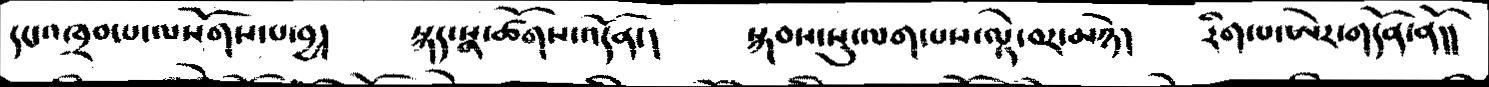དང་འཁྲབ་པ་ལསོགས་པ་བྱ།        སྐད་སྣ་ཚོགས་འདོན་།       སྐབས་སུ་ལག་པས་ལྟེ་བར་མཉེ།     རིག་པ་ཨེར་འདོན་ནོ།།
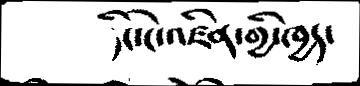ཏིང་ངེ་འཛིན་གྱི་ཁྱད་
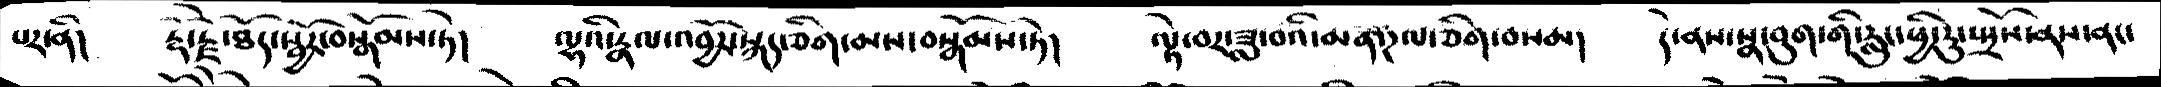པར་ནི།      རྡོ་རྗེ་ཐོད་སྦྱོར་བ་བསྒོམས་ཏེ།   ལྷའི་རྣལ་འབྱོར་སྐད་ཅིག་མས་བསྒོམས་ཏེ།    ལྟེ་བར་ཟླ་བའི་མན་ཌལ་ཅིག་བསམ།    དེ་ནས་སྣ་བུག་གི་རླུང་ཕྱི་རུ་སྤྲོས་ནས་ནང་
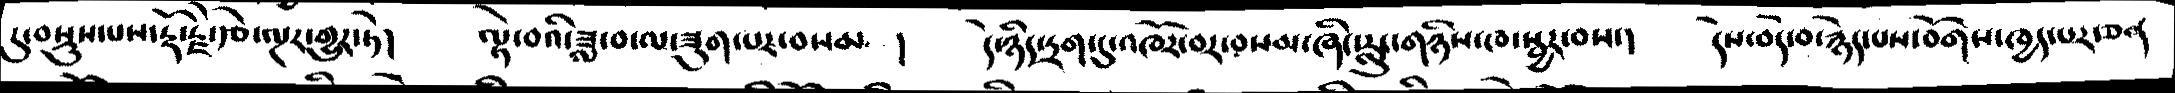དུ་བསྡུས་པས་རྡོ་རྗེ་རྩེ་ལྔར་གྱུར་ཏེ།   ལྟེ་བའི་ཟླ་བ་ལ་ཟུག་པར་བསམ  །  དེ་ཉིད་དྲག་དུ་འཁོར་བར་བསམ་ཞིང་རླུང་གཉིས་ཁ་སྦྱར་བས་།   དེས་བདེ་བ་རྙེད་པས་བོགས་ཁྱད་པར་ཅན
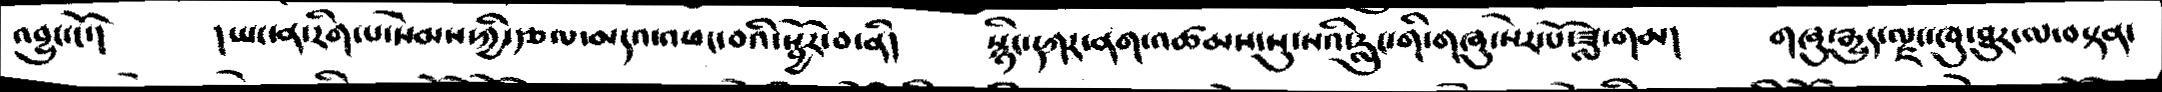འབྱུང་ངོ་།     །ཡང་ན་རིག་པ་སེམས་ཀྱི་རྩལ་མདའ་འཕང་བའི་སྦྱོར་བ་ནི།   སྙིང་དཀར་ནག་འཚམས་སུ་སའི་རླུང་གི་གཞུ་སེར་པོ་ཟླ་གམ།    གཞུ་རྒྱུད་ལྗང་ཁུ་ཐུར་ལ་བསྟན་
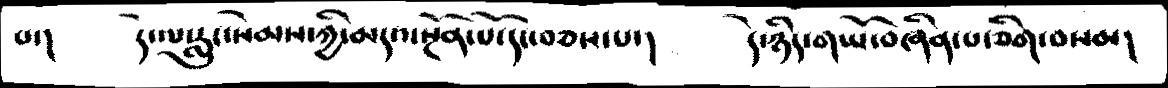པ་།     དེ་ལ་རླུང་སེམས་ཀྱི་མདའ་སྔོན་པོ་དང་བཅས་པ་།        དེ་ཉིད་གཡོ་བཞིན་པ་ཅིག་བསམ།
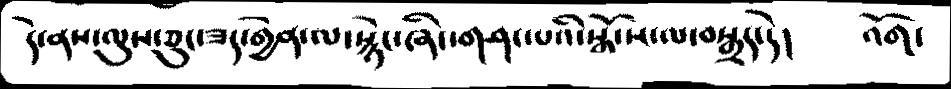དེ་ནས་ལུས་ཅུང་ཟད་གྱེན་ལ་སྙེང་ཞིང་གཤང་པའི་སྒོ་ས་ལ་བསྒྲད་དེ།       འོག་
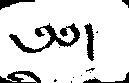༄༅།
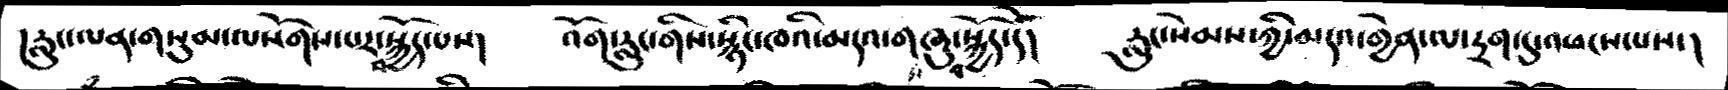།རླུང་ལན་གསུམ་ལསོགས་པར་བསྐྱོད་པས།   འོག་རླུང་གིས་སྙིང་ཁའི་མདའ་གཞུ་བསྐྱོད་དེ།   རླུང་སེམས་ཀྱི་མདའ་གྱེན་ལ་དྲག་དུ་འཕངས་པས་།
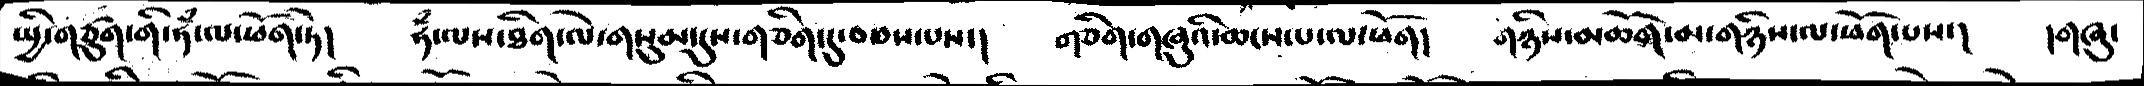སྤྱི་གཙུག་གི་ཧཾ་ལ་ཕོག་ཏེ།   ཧཾ་ལས་ཐིག་ལེ་གསུམ་དུས་གཅིག་དུ་བཅས་པས་།    གཅིག་གཞུའི་ཆངས་པ་ལ་ཕོག།    གཉིས་མཆོག་མ་གཉིས་ལ་ཕོག་པས་།    །གཞུ་
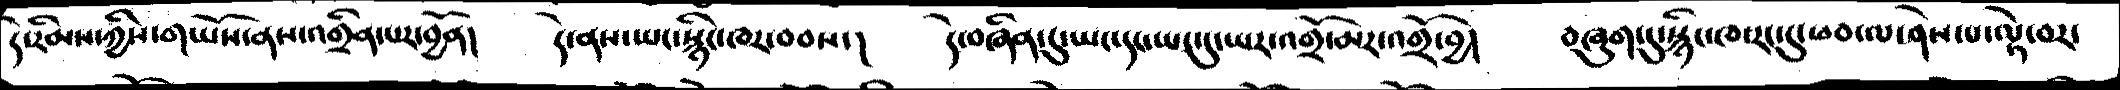དེ་རིམས་ཀྱིས་གཡོས་ནས་འགྲིན་པར་བྱོན།      དེ་ནས་ཡང་སྙིང་ཁར་བབས་།  དེ་བཞིན་དུ་ཡང་དང་ཡང་དུ་ཡར་འགྲོ་མར་འགྲོ་བྱེ།    བཞུག་དུ་སྙིང་ཁར་རང་དུཕབ་ལ་ཤེས་པ་ལྟེ་བར་
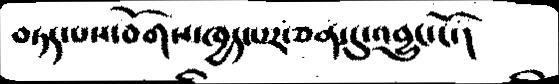བཏད་པས་བོགས་ཁྱད་པར་ཅན་དུ་འབྱུང་ངོ་།
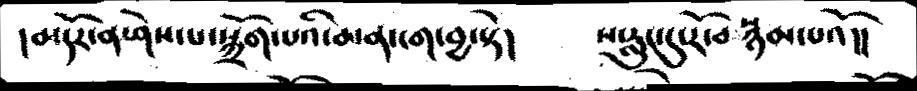།མདོར་ན་ཤེས་པ་སྐྲོག་པའི་མན་ངག་བྱ་སྟེ།          ས་རླུང་དུ་རོ་བསྙམ་པའོ།།
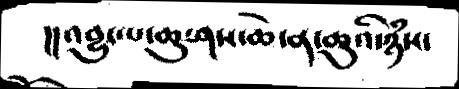།།འབྱུང་པ་ཆུ་ཤས་ཆེ་ན་ཆུའི་ཉཾས་
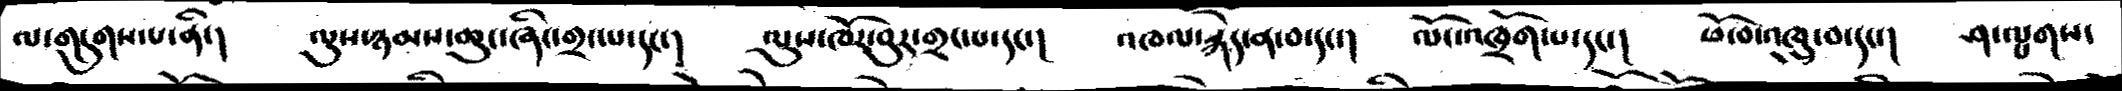ལ་གདུགས་པ་ནི་།   ལུས་ཉམས་ཆུང་ཞིང་གྲང་པ་དང་།    ལུས་ཁོར་བུར་གྲང་པ་དང་།   འཁལ་རྐེད་ན་བ་དང་།    ལོང་འཁྲོག་པ་དང་།    ཕོ་བ་འཁྲུ་བ་དང་།   ཤ་ལྤགས་
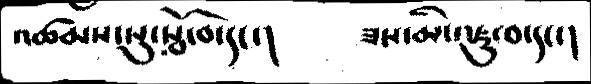འཚམས་སུ་སྦོ་བ་དང་།           ཟས་མི་འཇུ་བ་དང་།
